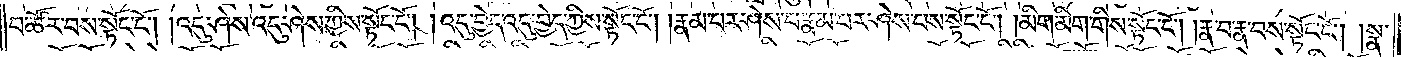བ་ཚོར་བས་སྟོང་ངོ༌། །འདུ་ཤེས་འདུ་ཤེས་ཀྱིས་སྟོང་ངོ༌། །འདུ་བྱེད་འདུ་བྱེད་ཀྱིས་སྟོང་ངོ༌། །རྣམ་པར་ཤེས་པ་རྣམ་པར་ཤེས་པས་སྟོང་ངོ༌། །མིག་མིག་གིས་སྟོང་ངོ༌། །རྣ་བ་རྣ་བས་སྟོང་ངོ༌། །སྣ་
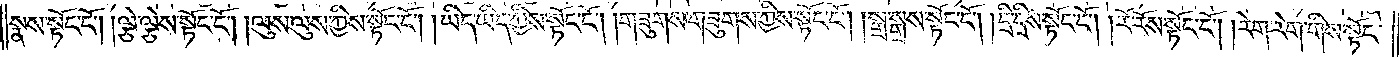སྣས་སྟོང་ངོ༌། །ལྕེ་ལྕེས་སྟོང་ངོ༌། །ལུས་ལུས་ཀྱིས་སྟོང་ངོ༌། །ཡིད་ཡིད་ཀྱིས་སྟོང་ངོ༌། །གཟུགས་གཟུགས་ཀྱིས་སྟོང་ངོ༌། །སྒྲ་སྒྲས་སྟོང་ངོ༌། །དྲི་དྲིས་སྟོང་ངོ༌། །རོ་རོས་སྟོང་ངོ༌། །རེག་རེག་གིས་སྟོང་
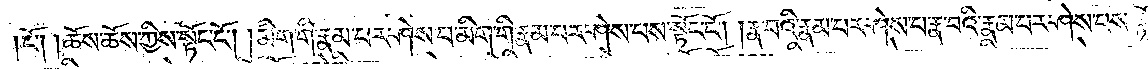ངོ༌། །ཆོས་ཆོས་ཀྱིས་སྟོང་ངོ༌། །མིག་གི་རྣམ་པར་ཤེས་པ་མིག་གི་རྣམ་པར་ཤེས་པས་སྟོང་ངོ༌། །རྣ་བའི་རྣམ་པར་ཤེས་པ་རྣ་བའི་རྣམ་པར་ཤེས་པས་སྟོང་
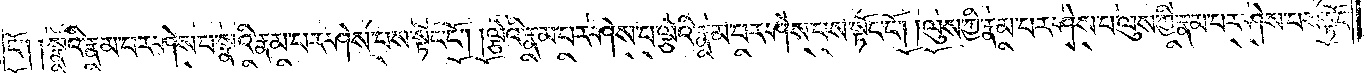ངོ༌། །སྣའི་རྣམ་པར་ཤེས་པ་སྣའི་རྣམ་པར་ཤེས་པས་སྟོང་ངོ༌། །ལྕེའི་རྣམ་པར་ཤེས་པ་ལྕེའི་རྣམ་པར་ཤེས་པས་སྟོང་ངོ༌། །ལུས་ཀྱི་རྣམ་པར་ཤེས་པ་ལུས་ཀྱི་རྣམ་པར་ཤེས་པས་སྟོང་
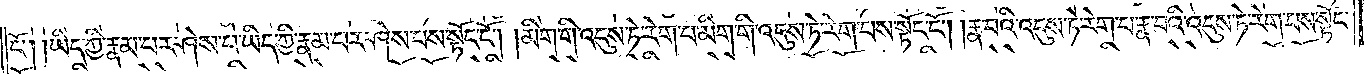ངོ༌། །ཡིད་ཀྱི་རྣམ་པར་ཤེས་པ་ཡིད་ཀྱི་རྣམ་པར་ཤེས་པས་སྟོང་ངོ༌། །མིག་གི་འདུས་ཏེ་རེག་པ་མིག་གི་འདུས་ཏེ་རེག་པས་སྟོང་ངོ༌། །རྣ་བའི་འདུས་ཏེ་རེག་པ་རྣ་བའི་འདུས་ཏེ་རེག་པས་སྟོང་
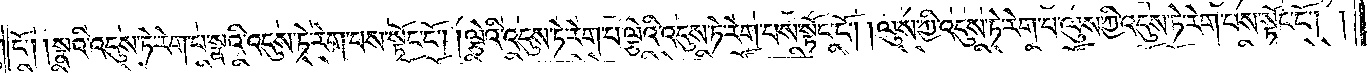ངོ༌། །སྣའི་འདུས་ཏེ་རེག་པ་སྣའི་འདུས་ཏེ་རེག་པས་སྟོང་ངོ༌། །ལྕེའི་འདུས་ཏེ་རེག་པ་ལྕེའི་འདུས་ཏེ་རེག་པས་སྟོང་ངོ༌། །ལུས་ཀྱི་འདུས་ཏེ་རེག་པ་ལུས་ཀྱི་འདུས་ཏེ་རེག་པས་སྟོང་ངོ༌། །
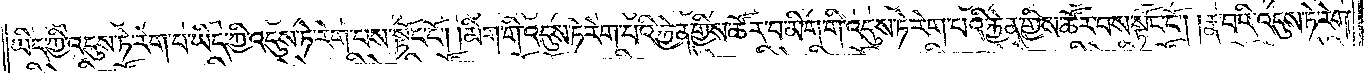ཡིད་ཀྱི་འདུས་ཏེ་རེག་པ་ཡིད་ཀྱི་འདུས་ཏེ་རེག་པས་སྟོང་ངོ༌། །མིག་གི་འདུས་ཏེ་རེག་པའི་རྐྱེན་གྱིས་ཚོར་བ་མིག་གི་འདུས་ཏེ་རེག་པའི་རྐྱེན་གྱིས་ཚོར་བས་སྟོང་ངོ༌། །རྣ་བའི་འདུས་ཏེ་རེག་
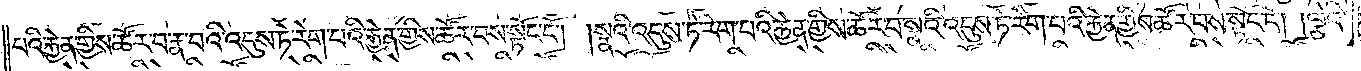པའི་རྐྱེན་གྱིས་ཚོར་བ་རྣ་བའི་འདུས་ཏེ་རེག་པའི་རྐྱེན་གྱིས་ཚོར་བས་སྟོང་ངོ༌། །སྣའི་འདུས་ཏེ་རེག་པའི་རྐྱེན་གྱིས་ཚོར་བ་སྣའི་འདུས་ཏེ་རེག་པའི་རྐྱེན་གྱིས་ཚོར་བས་སྟོང་ངོ༌། །ལྕེའི་
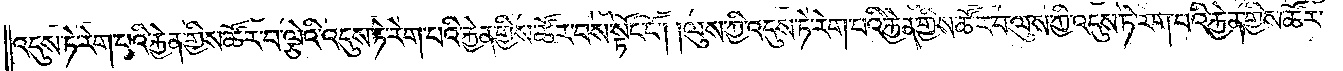འདུས་ཏེ་རེག་པའི་རྐྱེན་གྱིས་ཚོར་བ་ལྕེའི་འདུས་ཏེ་རེག་པའི་རྐྱེན་གྱིས་ཚོར་བས་སྟོང་ངོ༌། །ལུས་ཀྱི་འདུས་ཏེ་རེག་པའི་རྐྱེན་གྱིས་ཚོར་བ་ལུས་ཀྱི་འདུས་ཏེ་རེག་པའི་རྐྱེན་གྱིས་ཚོར་
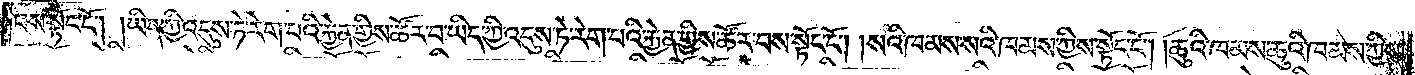བས་སྟོང་ངོ༌། །ཡིད་ཀྱི་འདུས་ཏེ་རེག་པའི་རྐྱེན་གྱིས་ཚོར་བ་ཡིད་ཀྱི་འདུས་ཏེ་རེག་པའི་རྐྱེན་གྱིས་ཚོར་བས་སྟོང་ངོ༌། །སའི་ཁམས་སའི་ཁམས་ཀྱིས་སྟོང་ངོ༌། །ཆུའི་ཁམས་ཆུའི་ཁམས་ཀྱིས་
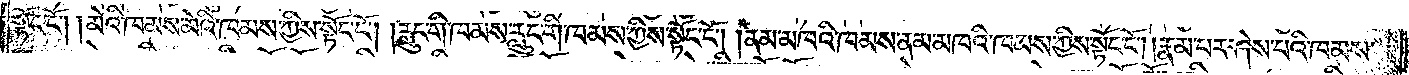སྟོང་ངོ༌། །མེའི་ཁམས་མེའི་ཁམས་ཀྱིས་སྟོང་ངོ༌། །རླུང་གི་ཁམས་རླུང་གི་ཁམས་ཀྱིས་སྟོང་ངོ༌། །ནམ་མཁའི་ཁམས་ནམ་མཁའི་ཁམས་ཀྱིས་སྟོང་ངོ༌། །རྣམ་པར་ཤེས་པའི་ཁམས་
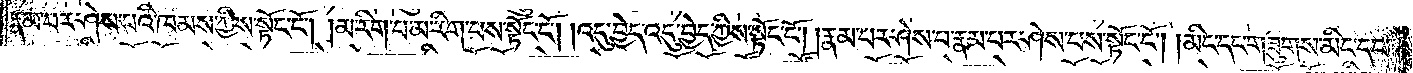རྣམ་པར་ཤེས་པའི་ཁམས་ཀྱིས་སྟོང་ངོ༌། །མ་རིག་པ་མ་རིག་པས་སྟོང་ངོ༌། །འདུ་བྱེད་འདུ་བྱེད་ཀྱིས་སྟོང་ངོ༌། །རྣམ་པར་ཤེས་པ་རྣམ་པར་ཤེས་པས་སྟོང་ངོ༌། །མིང་དང་གཟུགས་མིང་དང་
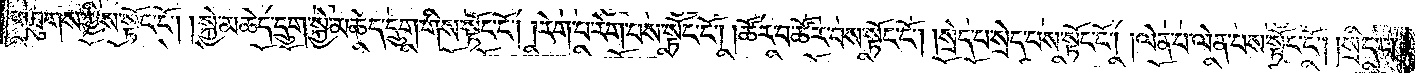གཟུགས་ཀྱིས་སྟོང་ངོ༌། །སྐྱེ་མཆེད་དྲུག་སྐྱེ་མཆེད་དྲུག་གིས་སྟོང་ངོ༌། །རེག་པ་རེག་པས་སྟོང་ངོ༌། །ཚོར་བ་ཚོར་བས་སྟོང་ངོ༌། །སྲེད་པ་སྲེད་པས་སྟོང་ངོ༌། །ལེན་པ་ལེན་པས་སྟོང་ངོ༌། །སྲིད་པ་
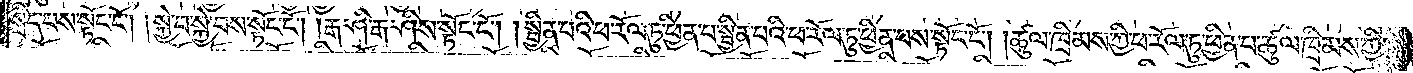སྲིད་པས་སྟོང་ངོ༌། །སྐྱེ་བ་སྐྱེ་བས་སྟོང་ངོ༌། །རྒ་ཤི་རྒ་ཤིས་སྟོང་ངོ༌། །སྦྱིན་པའི་ཕ་རོལ་ཏུ་ཕྱིན་པ་སྦྱིན་པའི་ཕ་རོལ་ཏུ་ཕྱིན་པས་སྟོང་ངོ༌། །ཚུལ་ཁྲིམས་ཀྱི་ཕ་རོལ་ཏུ་ཕྱིན་པ་ཚུལ་ཁྲིམས་ཀྱི་
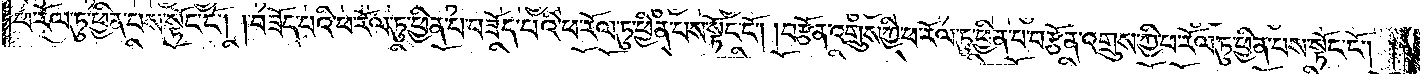ཕ་རོལ་ཏུ་ཕྱིན་པས་སྟོང་ངོ༌། བཟོད་པའི་ཕ་རོལ་ཏུ་ཕྱིན་པ་བཟོད་པའི་ཕ་རོལ་ཏུ་ཕྱིན་པས་སྟོང་ངོ༌། །བརྩོན་འགྲུས་ཀྱི་ཕ་རོལ་ཏུ་ཕྱིན་པ་བརྩོན་འགྲུས་ཀྱི་ཕ་རོལ་ཏུ་ཕྱིན་པས་སྟོང་ངོ༌། །
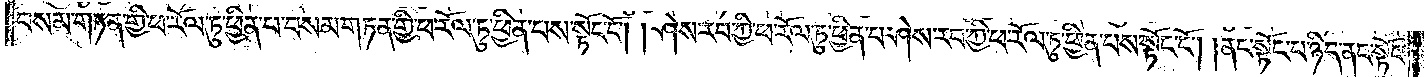བསམ་གཏན་གྱི་ཕ་རོལ་ཏུ་ཕྱིན་པ་བསམ་གཏན་གྱི་ཕ་རོལ་ཏུ་ཕྱིན་པས་སྟོང་ངོ༌། །ཤེས་རབ་ཀྱི་ཕ་རོལ་ཏུ་ཕྱིན་པ་ཤེས་རབ་ཀྱི་ཕ་རོལ་ཏུ་ཕྱིན་པས་སྟོང་ངོ༌། །ནང་སྟོང་པ་ཉིད་ནང་སྟོང་
